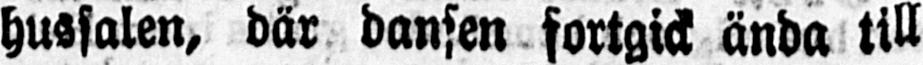hussalen, där dansen fortgick ända till
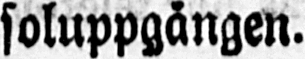soluppgången.
